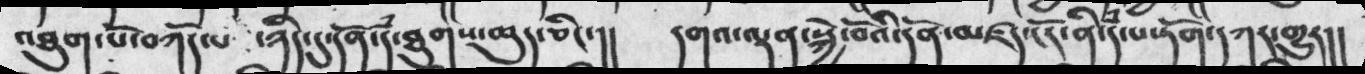འཐུག་པོ་བཀོད་པ ་ཉིད་དུ་དོན་དཾ་ཐུགས་ཆུད་ཅིང་།།   དགའ་ལྡན་སྐྱེ་བོའི་དོན་མཛད་ངོར་ནི་དཾ་པ་ཏོག་དཀར་གྱུར།།
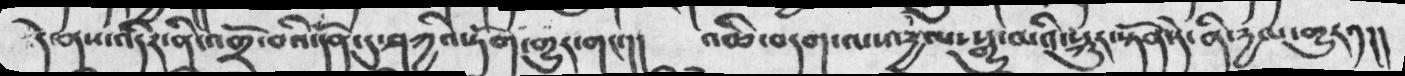དེ་ནས་འདིར་ནི་འགྲོ་བའི་དོན་དུ་ཤཀྱའི་ཏོག་གྱུར་གང་།།   འཆི་བདག་ལས་དྱལ་སྒྱུ་མའི་སྐུར་སྟོན་དེ་ནི་དྱལ་གྱུར་༡།།
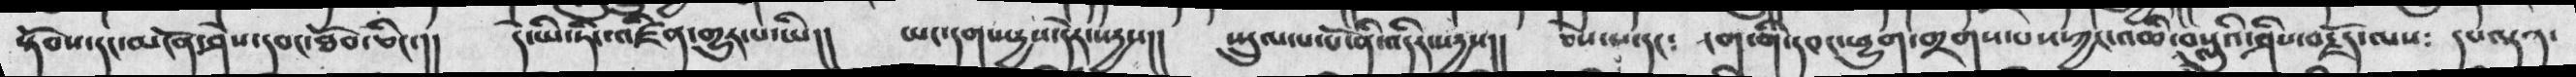སྟོབས་དང་མངོན་ཤེས་དབང་ཐོབ་ཅིང་།།   དེ་ཡི་ཏིང་འཛིན་གྱུར་པ་ཡི།།  ཡང་དག་སདྱས་དེར་སདྱས།།  སྤྲུལ་པ་པོ་ནི་འདིར་སདྱས།།  ཅེས་པ་དང༴  ངག་གི་དབང་ཕྱུག་གྲགས་པས་ཀྱང་འཆི་བསླུའི་ཤིས་བརྗོད་ལས༴  དཔལྡན་
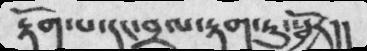རྟོག་པ་དང་བྲལ་རྟག་ཏུ་སྦྱོར།།
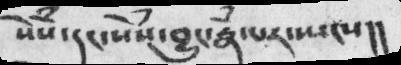སེཾས་དང་སེཾས་བྱུང་རྣཾ་པར་སྤངས།།
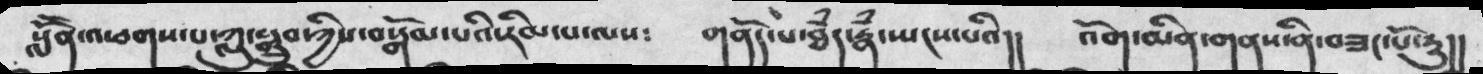སློོན་འཕགས་པ་ཀླུ་སྒྲུབ་ཀྱིས་བསྒོམ་པའི་རིམ་པ་ལས༴    གནོད་པ་ཐཾད་རྣཾ་སྤངས་པའི།།   འོག་མིན་གནས་ནི་བཟང་པོ་དྱུ།།
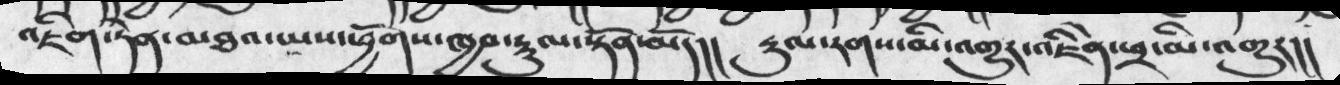འཇིག་རྟེན་མཐའ་ཡས་ཕྱོགས་ཁྱབ་རྡུལ་སྟོན་མོད།།  རྡུལ་རགས་མི་འགྱུར་འཇིེན་ཕྲ་མི་འགྱུར།།
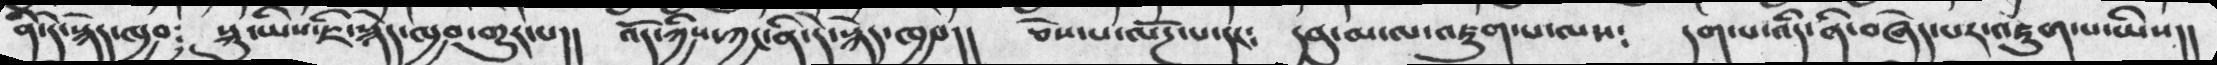ནི་དེ་སྐོར་ཁྱབ་  སྐུ་ཡིས་ཇི་སྙེད་ཁྱབ་གྱུར་པ།།   འོད་ཀྱིས་ཀྱང་ནི་དེ་སྙེད་ཁྱབ།།   ཅེས་པ་ལོཌ་པ་དང༴  དབུ་མ་ལ་འཇུག་ལས༴   དག་པ་འདི་ནི་བཞེད་པར་འཇུག་པ་ཡིས།།
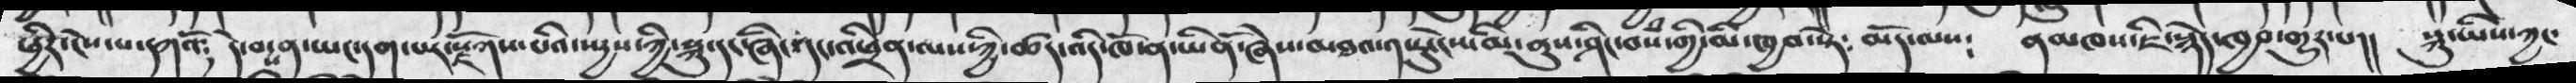ཕྱིར་ངེས་པ་དཀའོ༴   དེ་བས་ན་ཡང་དག་པར་སྫོགས་པའི་སརྱས་ཀྱི་སྐུ་དང་ཞིང་དང་འཕྲིན་ལས་ཀྱི་ཚད་འདི་ཁོ་ན་ཡིནོ་ཞེས་མཐའ་༡་ཏུ་ངེས་མི་ནུས་ཤིང་བསཾ་གྱི་མི་ཁྱབ་སྟེ༴   མདོ་ལས༴    ནམཁས་ཇི་སྙེད་ཁྱབ་གྱུར་པ།།  སྐུ་ཡིས་ཀྱང་
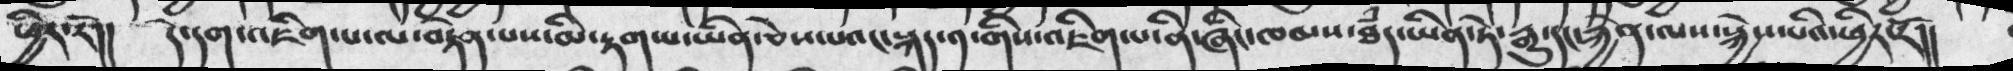ཕྱིར་རོ།།  དེ་དག་འཇིག་པ་ལ་བརྟེན་པས་མི་རྟག་པ་ཡིན་ཅེས་པའང་སྐད་༡་གིས་འཇིག་པ་ནི་ཞིང་ཁམས་ཐཾད་ཡིན་ཏེ་རྒྱུ་དང་རྐྱེན་ལས་སྐྱེས་པའི་ཕྱིར་རོ།།
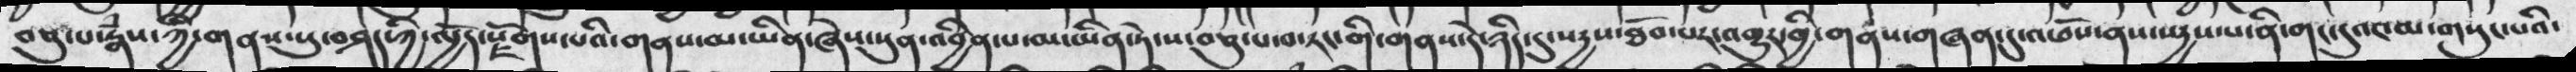བཅུ་པ་རྣཾས་ཀྱི་གནས་སུ་བཤད་ཀྱི་ལྱོད་སྫོགས་པའི་གནས་མ་ཡིན་ཞེས་སུན་འབྱིན་པ་མ་ཡིན་ཏེ་ས་བཅུ་པ་བ་རང་གི་གནས་དེ་ཉིད་དུ་སདྱས་ཐོབ་པར་འགྱུར་གྱི་གནས་གཞན་དུ་འཕོས་ནས་སདྱས་པ་ནི་གང་དུའང་མ་གསུང་པའི་
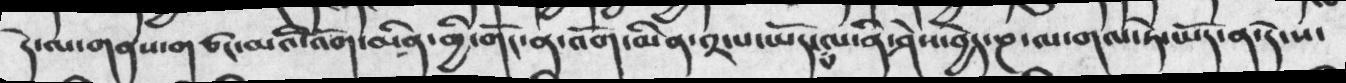དེ་ལ་གནས་གཙང་མའི་འོག་མིན་གྱི་གོང་ན་འོག་མིན་༢་པ་ཡོད་པ་ལ་ནི་ཤེས་བྱེད་ཎ་ལ་གལ་ཏེ་ཡོད་ན་དེ་ས་
